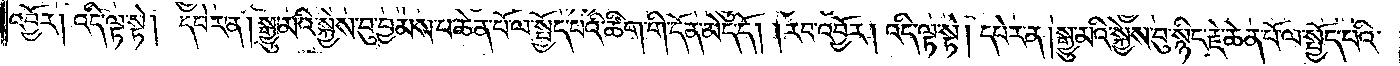འབྱོར། འདི་ལྟ་སྟེ། དཔེར་ན། སྒྱུ་མའི་སྐྱེས་བུ་བྱམས་པ་ཆེན་པོ་ལ་སྤྱོད་པའི་ཚིག་གི་དོན་མེད་དོ། །རབ་འབྱོར། འདི་ལྟ་སྟེ། དཔེར་ན། སྒྱུ་མའི་སྐྱེས་བུ་སྙིང་རྗེ་ཆེན་པོ་ལ་སྤྱོད་པའི་
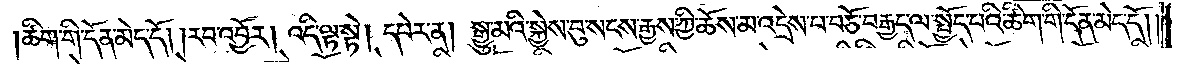ཚིག་གི་དོན་མེད་དོ། །རབ་འབྱོར། འདི་ལྟ་སྟེ། དཔེར་ན། སྒྱུ་མའི་སྐྱེས་བུ་སངས་རྒྱས་ཀྱི་ཆོས་མ་འདྲེས་པ་བཅོ་བརྒྱད་ལ་སྤྱོད་པའི་ཚིག་གི་དོན་མེད་དོ། །
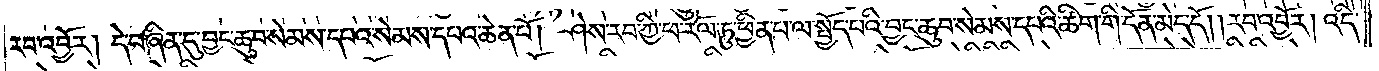རབ་འབྱོར། དེ་བཞིན་དུ་བྱང་ཆུབ་སེམས་དཔའ་སེམས་དཔའ་ཆེན་པོ། ཤེས་རབ་ཀྱི་ཕ་རོལ་ཏུ་ཕྱིན་པ་ལ་སྤྱོད་པའི་བྱང་ཆུབ་སེམས་དཔའི་ཚིག་གི་དོན་མེད་དོ། །རབ་འབྱོར། འདི་
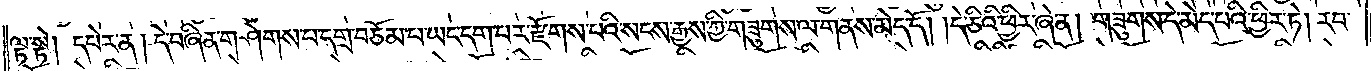ལྟ་སྟེ། དཔེར་ན། དེ་བཞིན་གཤེགས་པ་དགྲ་བཅོམ་པ་ཡང་དག་པར་རྫོགས་པའི་སངས་རྒྱས་ཀྱི་གཟུགས་ལ་གནས་མེད་དོ། །དེ་ཅིའི་ཕྱིར་ཞེ་ན། གཟུགས་དེ་མེད་པའི་ཕྱིར་ཏེ། རབ་
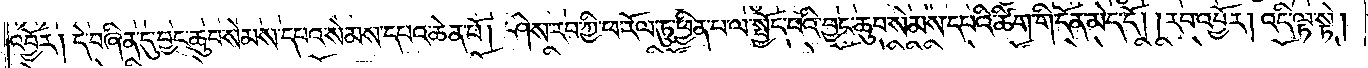འབྱོར། དེ་བཞིན་དུ་བྱང་ཆུབ་སེམས་དཔའ་སེམས་དཔའ་ཆེན་པོ། ཤེས་རབ་ཀྱི་ཕ་རོལ་ཏུ་ཕྱིན་པ་ལ་སྤྱོད་པའི་བྱང་ཆུབ་སེམས་དཔའི་ཚིག་གི་དོན་མེད་དོ། །རབ་འབྱོར། འདི་ལྟ་སྟེ།
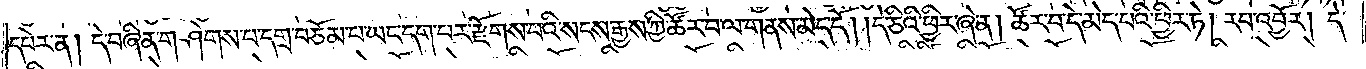དཔེར་ན། དེ་བཞིན་གཤེགས་པ་དགྲ་བཅོམ་པ་ཡང་དག་པར་རྫོགས་པའི་སངས་རྒྱས་ཀྱི་ཚོར་བ་ལ་གནས་མེད་དོ། །དེ་ཅིའི་ཕྱིར་ཞེ་ན། ཚོར་བ་དེ་མེད་པའི་ཕྱིར་ཏེ། རབ་འབྱོར། དེ་
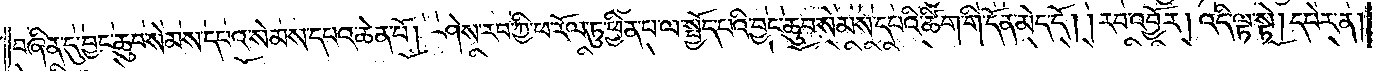བཞིན་དུ་བྱང་ཆུབ་སེམས་དཔའ་སེམས་དཔའ་ཆེན་པོ། ཤེས་རབ་ཀྱི་ཕ་རོལ་ཏུ་ཕྱིན་པ་ལ་སྤྱོད་པའི་བྱང་ཆུབ་སེམས་དཔའི་ཚིག་གི་དོན་མེད་དོ། །རབ་འབྱོར། འདི་ལྟ་སྟེ། དཔེར་ན།
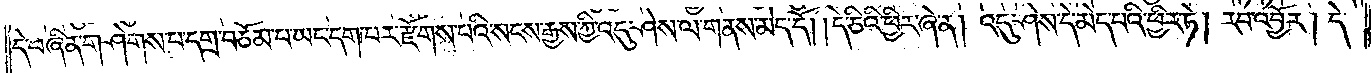དེ་བཞིན་གཤེགས་པ་དགྲ་བཅོམ་པ་ཡང་དག་པར་རྫོགས་པའི་སངས་རྒྱས་ཀྱི་འདུ་ཤེས་ལ་གནས་མེད་དོ། །དེ་ཅིའི་ཕྱིར་ཞེ་ན། འདུ་ཤེས་དེ་མེད་པའི་ཕྱིར་ཏེ། རབ་འབྱོར། དེ་
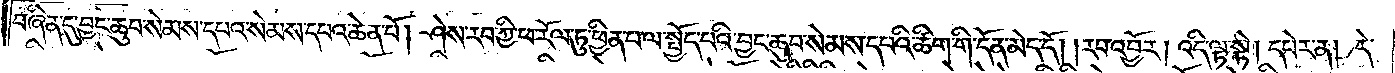བཞིན་དུ་བྱང་ཆུབ་སེམས་དཔའ་སེམས་དཔའ་ཆེན་པོ། ཤེས་རབ་ཀྱི་ཕ་རོལ་ཏུ་ཕྱིན་པ་ལ་སྤྱོད་པའི་བྱང་ཆུབ་སེམས་དཔའི་ཚིག་གི་དོན་མེད་དོ། །རབ་འབྱོར། འདི་ལྟ་སྟེ། དཔེར་ན། དེ་
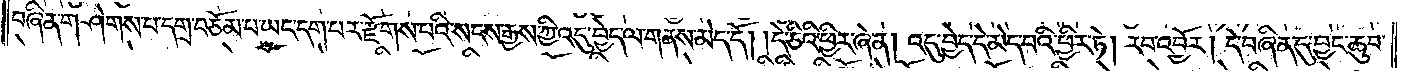བཞིན་གཤེགས་པ་དགྲ་བཅོམ་པ་ཡང་དག་པར་རྫོགས་པའི་སངས་རྒྱས་ཀྱི་འདུ་བྱེད་ལ་གནས་མེད་དོ། །དེ་ཅིའི་ཕྱིར་ཞེ་ན། འདུ་བྱེད་དེ་མེད་པའི་ཕྱིར་ཏེ། རབ་འབྱོར། དེ་བཞིན་དུ་བྱང་ཆུབ་
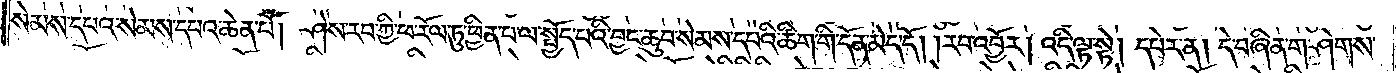སེམས་དཔའ་སེམས་དཔའ་ཆེན་པོ། ཤེས་རབ་ཀྱི་ཕ་རོལ་ཏུ་ཕྱིན་པ་ལ་སྤྱོད་པའི་བྱང་ཆུབ་སེམས་དཔའི་ཚིག་གི་དོན་མེད་དོ། །རབ་འབྱོར། འདི་ལྟ་སྟེ། དཔེར་ན། དེ་བཞིན་གཤེགས་
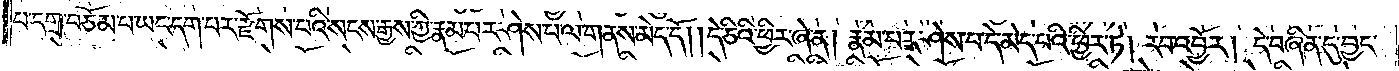པ་དགྲ་བཅོམ་པ་ཡང་དག་པར་རྫོགས་པའི་སངས་རྒྱས་ཀྱི་རྣམ་པར་ཤེས་པ་ལ་གནས་མེད་དོ། །དེ་ཅིའི་ཕྱིར་ཞེ་ན། རྣམ་པར་ཤེས་པ་དེ་མེད་པའི་ཕྱིར་ཏེ། རབ་འབྱོར། དེ་བཞིན་དུ་བྱང་
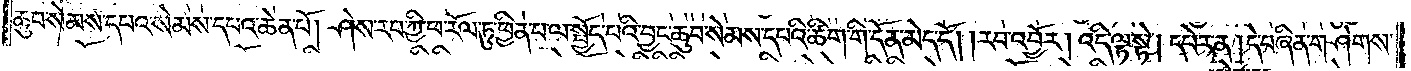ཆུབ་སེམས་དཔའ་སེམས་དཔའ་ཆེན་པོ། ཤེས་རབ་ཀྱི་ཕ་རོལ་ཏུ་ཕྱིན་པ་ལ་སྤྱོད་པའི་བྱང་ཆུབ་སེམས་དཔའི་ཚིག་གི་དོན་མེད་དོ། །རབ་འབྱོར། འདི་ལྟ་སྟེ། དཔེར་ན། དེ་བཞིན་གཤེགས་
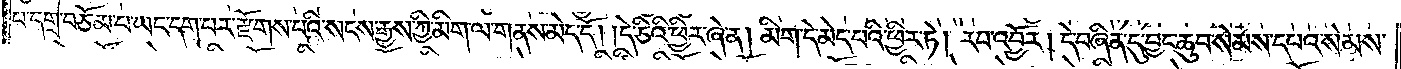པ་དགྲ་བཅོམ་པ་ཡང་དག་པར་རྫོགས་པའི་སངས་རྒྱས་ཀྱི་མིག་ལ་གནས་མེད་དོ། །དེ་ཅིའི་ཕྱིར་ཞེ་ན། མིག་དེ་མེད་པའི་ཕྱིར་ཏེ། རབ་འབྱོར། དེ་བཞིན་དུ་བྱང་ཆུབ་སེམས་དཔའ་སེམས་
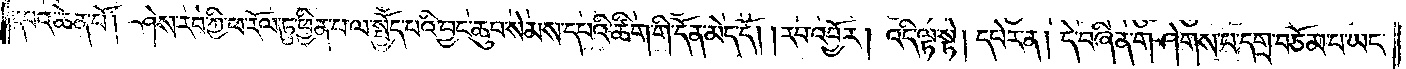དཔའ་ཆེན་པོ། ཤེས་རབ་ཀྱི་ཕ་རོལ་ཏུ་ཕྱིན་པ་ལ་སྤྱོད་པའི་བྱང་ཆུབ་སེམས་དཔའི་ཚིག་གི་དོན་མེད་དོ། །རབ་འབྱོར། འདི་ལྟ་སྟེ། དཔེར་ན། དེ་བཞིན་གཤེགས་པ་དགྲ་བཅོམ་པ་ཡང་
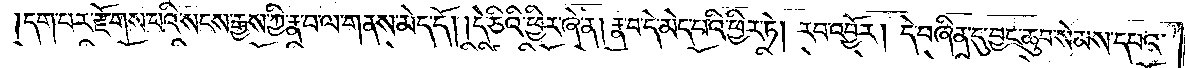དག་པར་རྫོགས་པའི་སངས་རྒྱས་ཀྱི་རྣ་བ་ལ་གནས་མེད་དོ། །དེ་ཅིའི་ཕྱིར་ཞེ་ན། རྣ་བ་དེ་མེད་པའི་ཕྱིར་ཏེ། རབ་འབྱོར། དེ་བཞིན་དུ་བྱང་ཆུབ་སེམས་དཔའ་
